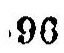96
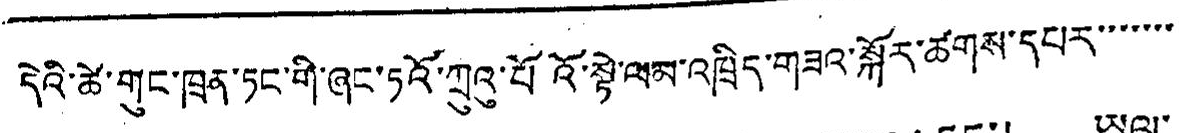དེའི་ཚེ་གུང་ཁྲན་ཏང་གི་ཞང་ཏའོ་ཀྲུའུ་པོའོ་སྟེ་ལམ་འཁྲིད་གཟའ་སྐོར་ཚོགས་དཔེར་་་་་་
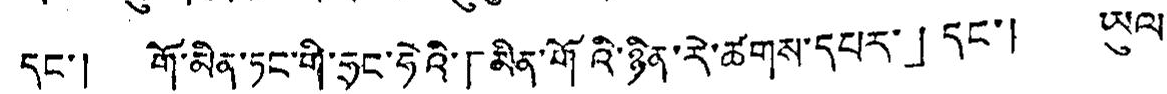དང་། གོ་མིན་ཏང་གི་ཧྲང་ཧེའི་「མིན་གོའི་ཉིན་རེ་ཚགས་དཔར་」དང་། ཡུལ་
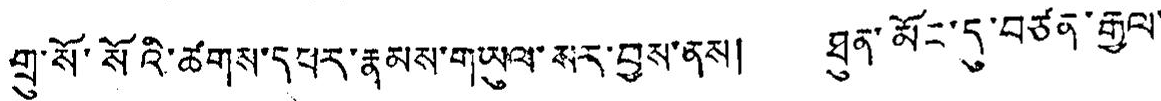གྲུ་སོ་སོའི་ཚགས་དཔར་རྣམས་གཡུལ་སར་བྱས་ནས། ཐུན་མོང་དུ་བཅན་རྒྱལ་
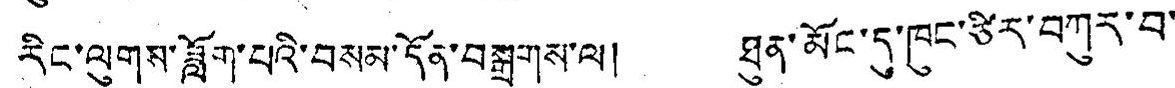རིང་ལུགས་ཟློག་པའི་བསམ་དོན་བསྒྲགས་ལ། ཐུན་མོང་དུ་ཁུང་ཙིར་བཀུར་བ་
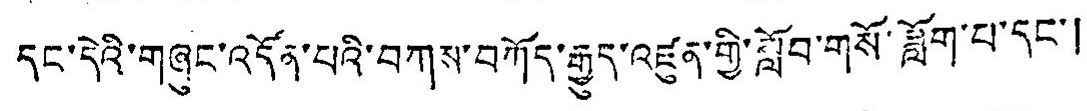དང་དེའི་གཞུང་འདོན་པའི་བཀས་བཀོད་རྒྱུད་འཛུན་གྱི་སློབ་གསོ་ཟློག་པ་དང་།
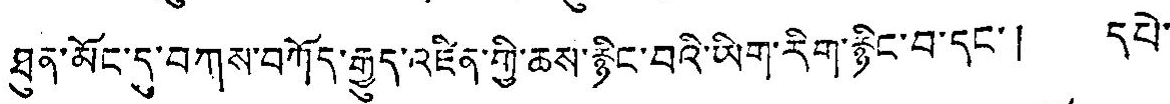ཐུན་མོང་དུ་བཀས་བཀོད་རྒྱུད་འཛིན་ཀྱི་ཆས་རྙིང་བའི་ཡིག་རིག་རྙིང་བ་དང་། དཔེ་
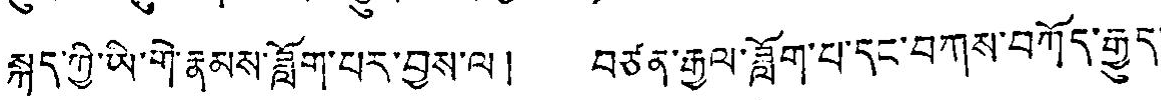སྐད་ཀྱི་ཡི་གེ་རྣམས་ཟློག་པར་བྱས་ལ། བཙན་རྒྱལ་ཟློག་པ་དང་བཀས་བཀོད་རྒྱུད་
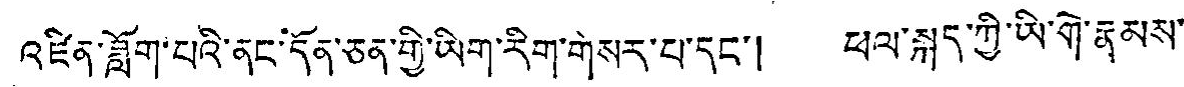འཛིན་ཟློག་པའི་ནང་དོན་ཅན་གྱི་ཡིག་རིག་གེསར་པ་དང་། ཕལ་སྐད་ཀྱི་ཡི་གེ་རྣམས་
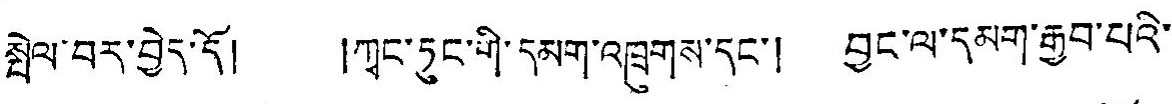སྤེལ་བར་བྱེད་དོ། །ཀྭང་ཏུང་གི་དམག་འཁྲུགས་དང་། བྱང་ལ་དམག་རྒྱབ་པའི་
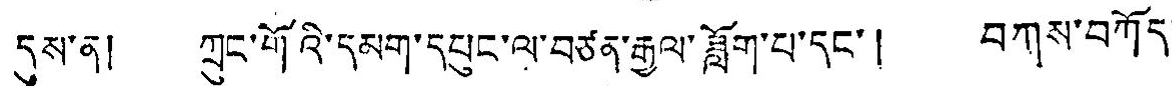དུས་ན། ཀྲུང་གོའི་དམག་དཔུང་ལ་བཙན་རྒྱལ་ཟློག་པ་དང་། བཀས་བཀོད་
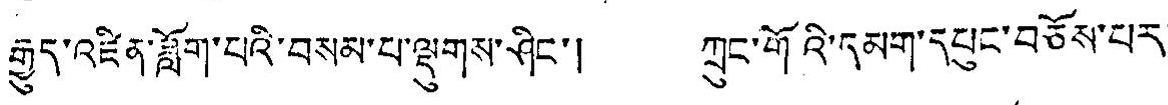རྒྱུད་འཛིན་ཟློག་པའི་བསམ་པ་ལྡུགས་ཤིང་། ཀྲུང་གོའི་དམག་དཔུང་བཅོས་པར་
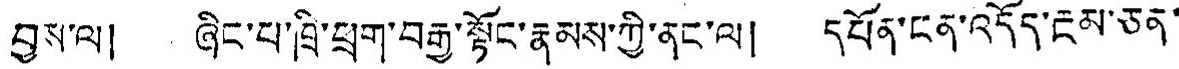བྱས་ལ། ཞིང་པ་ཁྲི་ཕྲག་བརྒྱ་སྟོང་རྣམས་ཀྱི་ནང་ལ། དཔོན་ངན་འདོད་རྔམ་ཅན་
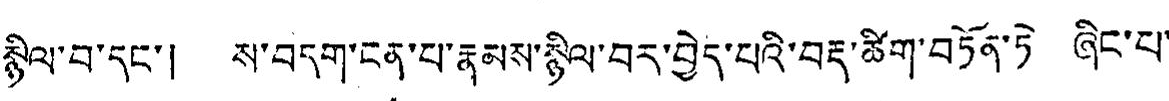སྙིལ་བ་དང་། ས་བདག་ངན་པ་རྣམས་སྙིལ་བར་བྱེད་པའི་བརྡ་ཚིག་བཏོན་ཏེ ཞིང་པ་
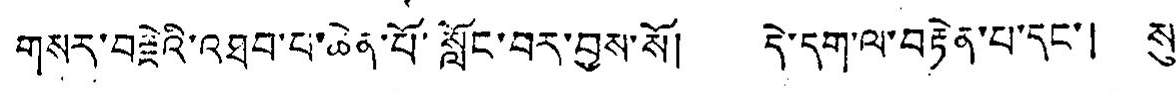གསར་བརྗེའི་འཐབ་པ་ཆེན་པོ་སློང་བར་བྱས་སོ། དེ་དག་ལ་བརྟེན་པ་དང་། སུ་
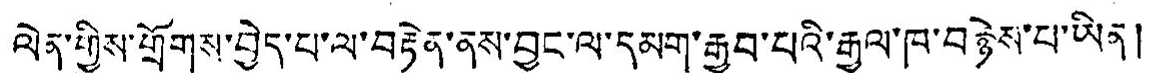ལེན་གྱིས་གྲོགས་བྱེད་པ་ལ་བརྟེན་ནས་བྱང་ལ་དམག་རྒྱབ་པའི་རྒྱལ་ཁ་བརྙེས་པ་ཡིན།
